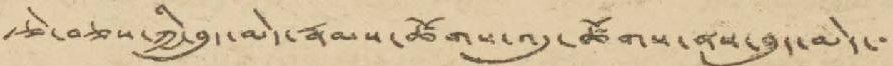རྩེ་བཅས་ཀྱི་བུད་མེད་རྣམས་ཚོགས་འདུ་ཚོགས་ནས་བུད་མེད་་་
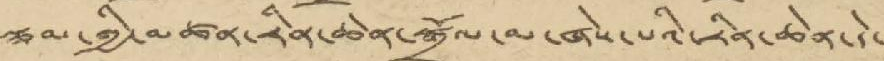ལྕམ་གྱི་མཚན་རིན་ཆེན་སྒྲོལ་མ་ཞེས་པའི་རིན་ཆེན་དེ་
